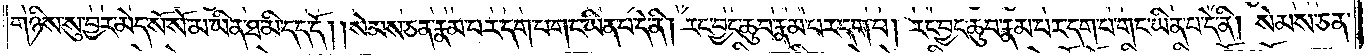གཉིས་སུ་བྱར་མེད་སོ་སོ་མ་ཡིན་ཐ་མི་དད་དོ། །སེམས་ཅན་རྣམ་པར་དག་པ་གང་ཡིན་པ་དེ་ནི། རང་བྱང་ཆུབ་རྣམ་པར་དག་པ། རང་བྱང་ཆུབ་རྣམ་པར་དག་པ་གང་ཡིན་པ་དེ་ནི། སེམས་ཅན་
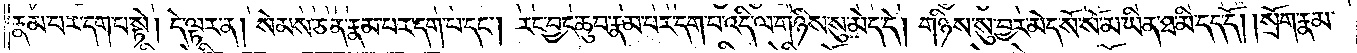རྣམ་པར་དག་པ་སྟེ། དེ་ལྟར་ན། སེམས་ཅན་རྣམ་པར་དག་པ་དང༌། རང་བྱང་ཆུབ་རྣམ་པར་དག་པ་འདི་ལ་གཉིས་སུ་མེད་དེ། གཉིས་སུ་བྱར་མེད་སོ་སོ་མ་ཡིན་ཐ་མི་དད་དོ། །སྲོག་རྣམ་
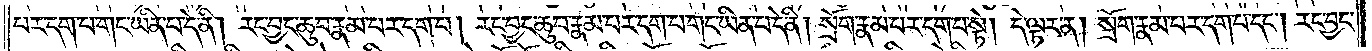པར་དག་པ་གང་ཡིན་པ་དེ་ནི། རང་བྱང་ཆུབ་རྣམ་པར་དག་པ། རང་བྱང་ཆུབ་རྣམ་པར་དག་པ་གང་ཡིན་པ་དེ་ནི། སྲོག་རྣམ་པར་དག་པ་སྟེ། དེ་ལྟར་ན། སྲོག་རྣམ་པར་དག་པ་དང༌། རང་བྱང་
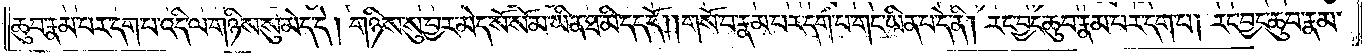ཆུབ་རྣམ་པར་དག་པ་འདི་ལ་གཉིས་སུ་མེད་དེ། གཉིས་སུ་བྱར་མེད་སོ་སོ་མ་ཡིན་ཐ་མི་དད་དོ། །གསོ་བ་རྣམ་པར་དག་པ་གང་ཡིན་པ་དེ་ནི། རང་བྱང་ཆུབ་རྣམ་པར་དག་པ། རང་བྱང་ཆུབ་རྣམ་
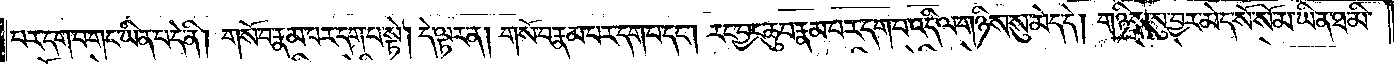པར་དག་པ་གང་ཡིན་པ་དེ་ནི། གསོ་བ་རྣམ་པར་དག་པ་སྟེ། དེ་ལྟར་ན། གསོ་བ་རྣམ་པར་དག་པ་དང༌། རང་བྱང་ཆུབ་རྣམ་པར་དག་པ་འདི་ལ་གཉིས་སུ་མེད་དེ། གཉིས་སུ་བྱར་མེད་སོ་སོ་མ་ཡིན་ཐ་མི་
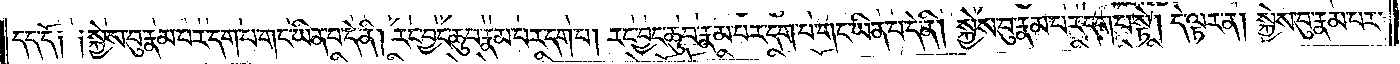དད་དོ༑ ༑སྐྱེས་བུ་རྣམ་པར་དག་པ་གང་ཡིན་པ་དེ་ནི། རང་བྱང་ཆུབ་རྣམ་པར་དག་པ། རང་བྱང་ཆུབ་རྣམ་པར་དག་པ་གང་ཡིན་པ་དེ་ནི། སྐྱེས་བུ་རྣམ་པར་དག་པ་སྟེ། དེ་ལྟར་ན། སྐྱེས་བུ་རྣམ་པར་
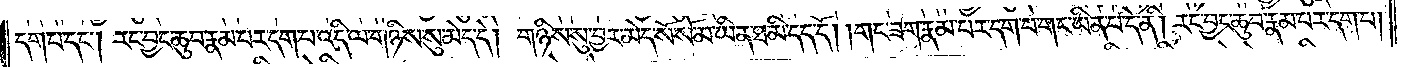དག་པ་དང༌། རང་བྱང་ཆུབ་རྣམ་པར་དག་པ་འདི་ལ་གཉིས་སུ་མེད་དེ། གཉིས་སུ་བྱར་མེད་སོ་སོ་མ་ཡིན་ཐ་མི་དད་དོ། །གང་ཟག་རྣམ་པར་དག་པ་གང་ཡིན་པ་དེ་ནི། རང་བྱང་ཆུབ་རྣམ་པར་དག་པ།
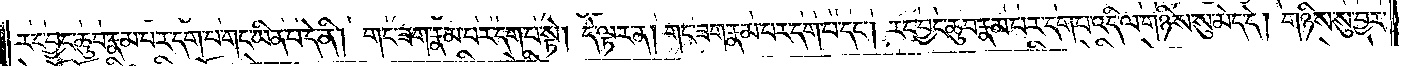རང་བྱང་ཆུབ་རྣམ་པར་དག་པ་གང་ཡིན་པ་དེ་ནི། གང་ཟག་རྣམ་པར་དག་པ་སྟེ། དེ་ལྟར་ན། གང་ཟག་རྣམ་པར་དག་པ་དང༌། རང་བྱང་ཆུབ་རྣམ་པར་དག་པ་འདི་ལ་གཉིས་སུ་མེད་དེ། གཉིས་སུ་བྱར་
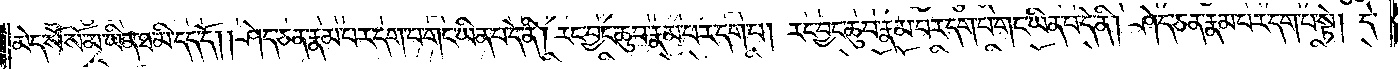མེད་སོ་སོ་མ་ཡིན་ཐ་མི་དད་དོ། །ཤེད་ཅན་རྣམ་པར་དག་པ་གང་ཡིན་པ་དེ་ནི། རང་བྱང་ཆུབ་རྣམ་པར་དག་པ། རང་བྱང་ཆུབ་རྣམ་པར་དག་པ་གང་ཡིན་པ་དེ་ནི། ཤེད་ཅན་རྣམ་པར་དག་པ་སྟེ། དེ་
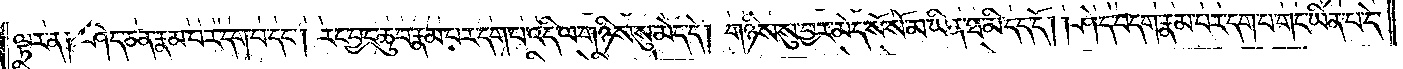ལྟར་ན། ཤེད་ཅན་རྣམ་པར་དག་པ་དང༌། རང་བྱང་ཆུབ་རྣམ་པར་དག་པ་འདི་ལ་གཉིས་སུ་མེད་དེ། གཉིས་སུ་བྱར་མེད་སོ་སོ་མ་ཡིན་ཐ་མི་དད་དོ། །ཤེད་བདག་རྣམ་པར་དག་པ་གང་ཡིན་པ་དེ་
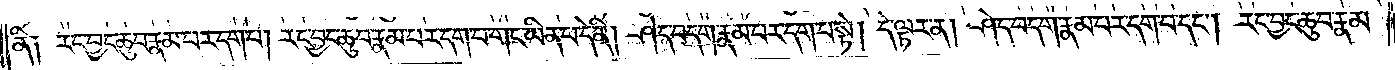ནི༑ རང་བྱང་ཆུབ་རྣམ་པར་དག་པ། རང་བྱང་ཆུབ་རྣམ་པར་དག་པ་གང་ཡིན་པ་དེ་ནི། ཤེད་བདག་རྣམ་པར་དག་པ་སྟེ། དེ་ལྟར་ན། ཤེད་བདག་རྣམ་པར་དག་པ་དང༌། རང་བྱང་ཆུབ་རྣམ་
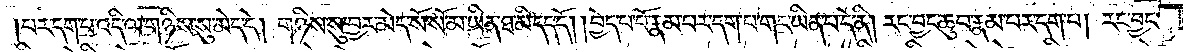པར་དག་པ་འདི་ལ་གཉིས་སུ་མེད་དེ། གཉིས་སུ་བྱར་མེད་སོ་སོ་མ་ཡིན་ཐ་མི་དད་དོ། །བྱེད་པ་པོ་རྣམ་པར་དག་པ་གང་ཡིན་པ་དེ་ནི། རང་བྱང་ཆུབ་རྣམ་པར་དག་པ། རང་བྱང་
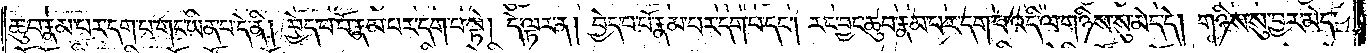ཆུབ་རྣམ་པར་དག་པ་གང་ཡིན་པ་དེ་ནི། བྱེད་པ་པོ་རྣམ་པར་དག་པ་སྟེ། དེ་ལྟར་ན། བྱེད་པ་པོ་རྣམ་པར་དག་པ་དང༌། རང་བྱང་ཆུབ་རྣམ་པར་དག་པ་འདི་ལ་གཉིས་སུ་མེད་དེ། གཉིས་སུ་བྱར་མེད་
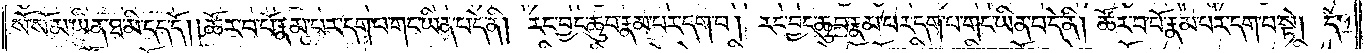སོ་སོ་མ་ཡིན་ཐ་མི་དད་དོ། །ཚོར་བ་པོ་རྣམ་པར་དག་པ་གང་ཡིན་པ་དེ་ནི། རང་བྱང་ཆུབ་རྣམ་པར་དག་པ། རང་བྱང་ཆུབ་རྣམ་པར་དག་པ་གང་ཡིན་པ་དེ་ནི། ཚོར་བ་པོ་རྣམ་པར་དག་པ་སྟེ། དེ་
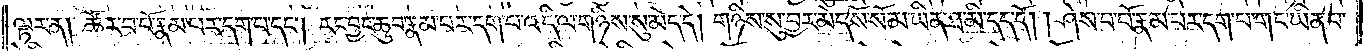ལྟར་ན། ཚོར་བ་པོ་རྣམ་པར་དག་པ་དང༌། རང་བྱང་ཆུབ་རྣམ་པར་དག་པ་འདི་ལ་གཉིས་སུ་མེད་དེ། གཉིས་སུ་བྱར་མེད་སོ་སོ་མ་ཡིན་ཐ་མི་དད་དོ། །ཤེས་པ་པོ་རྣམ་པར་དག་པ་གང་ཡིན་པ་
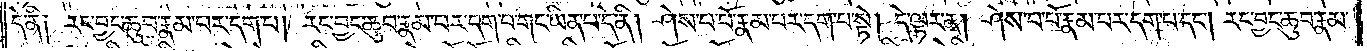དེ་ནི། རང་བྱང་ཆུབ་རྣམ་པར་དག་པ། རང་བྱང་ཆུབ་རྣམ་པར་དག་པ་གང་ཡིན་པ་དེ་ནི། ཤེས་པ་པོ་རྣམ་པར་དག་པ་སྟེ། དེ་ལྟར་ན། ཤེས་པ་པོ་རྣམ་པར་དག་པ་དང༌། རང་བྱང་ཆུབ་རྣམ་
